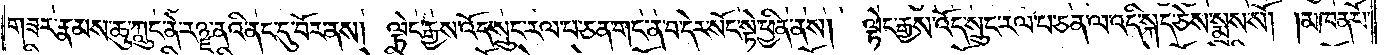གཟར་རྣམས་ཆུ་ཀླུང་ནེ་རཉྫ་ནའི་ནང་དུ་བོར་ནས། ལྟེང་རྒྱས་འོད་སྲུང་རལ་པ་ཅན་གང་ན་བ་དེར་སོང་སྟེ་ཕྱིན་ནས། ལྟེང་རྒྱས་འོད་སྲུང་རལ་པ་ཅན་ལ་འདི་སྐད་ཅེས་སྨྲས་སོ། །མཁན་པོ་
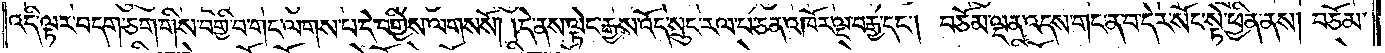འདི་ལྟར་བདག་ཅག་གིས་བགྱི་པ་གང་ལགས་པ་དེ་བགྱིས་ལགས་སོ། །དེ་ནས་ལྟེང་རྒྱས་འོད་སྲུང་རལ་པ་ཅན་འཁོར་ལྔ་བརྒྱ་དང༌། བཅོམ་ལྡན་འདས་གང་ན་བ་དེར་སོང་སྟེ་ཕྱིན་ནས། བཅོམ་
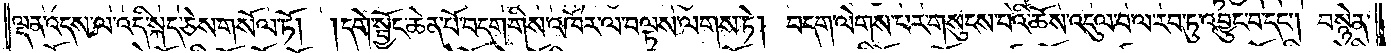ལྡན་འདས་ལ་འདི་སྐད་ཅེས་གསོལ་ཏོ། །དགེ་སྦྱོང་ཆེན་པོ་བདག་གིས་འཁོར་ལ་བལྟས་ལགས་ཏེ། བདག་ལེགས་པར་གསུངས་པའི་ཆོས་འདུལ་བ་ལ་རབ་ཏུ་འབྱུང་བ་དང༌། བསྙེན་
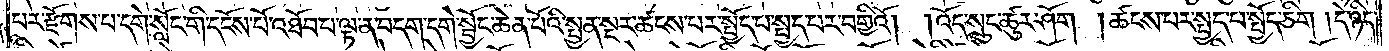པར་རྫོགས་པ་དགེ་སློང་གི་དངོས་པོ་འཐོབ་པ་ལྟ་ན་བདག་དགེ་སྦྱོང་ཆེན་པོའི་སྤྱན་སྔར་ཚངས་པར་སྤྱོད་པ་སྤྱད་པར་བགྱིའོ། །འོད་སྲུང་ཚུར་ཤོག །ཚངས་པར་སྤྱད་པ་སྤྱོད་ཅིག །དེ་ཉིད་
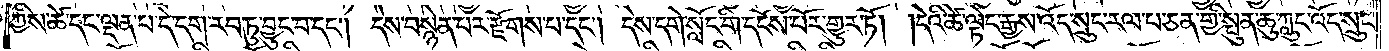ཀྱིས་ཚེ་དང་ལྡན་པ་དེ་དག་རབ་ཏུ་བྱུང་བ་དང༌། དེས་བསྙེན་པར་རྫོགས་པ་དང༌། དེས་དགེ་སློང་གི་དངོས་པོར་གྱུར་ཏོ། །དེའི་ཚེ་ལྟེང་རྒྱས་འོད་སྲུང་རལ་པ་ཅན་གྱི་སྤུན་ཆུ་ཀླུང་འོད་སྲུང་
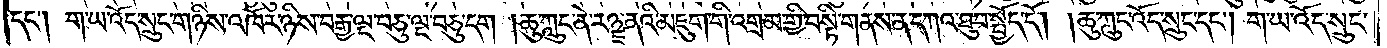དང༌། ག་ཡ་འོད་སྲུང་གཉིས་འཁོར་ཉིས་བརྒྱ་ལྔ་བཅུ་ལྔ་བཅུ་དག །ཆུ་ཀླུང་ནེ་རཉྫ་ནའི་མཇུག་གི་འགྲམ་གྱི་བསྟི་གནས་ན་དཀའ་ཐུབ་སྤྱོད་དོ། །ཆུ་ཀླུང་འོད་སྲུང་དང༌། ག་ཡ་འོད་སྲུང་
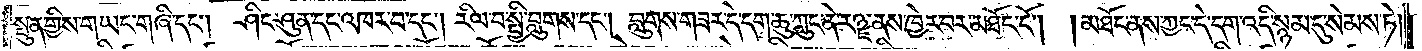སྤུན་གྱིས་གཡང་གཞི་དང༌། ཤིང་ཤུན་དང་འཁར་བ་དང༌། རིལ་བ་སྤྱི་བླུགས་དང༌། བླུགས་གཟར་དེ་དག་ཆུ་ཀླུང་ནེ་རཉྫ་ནས་ཁྱེར་བར་མཐོང་ངོ༌། །མཐོང་ནས་ཀྱང་དེ་དག་འདི་སྙམ་དུ་སེམས་ཏེ།
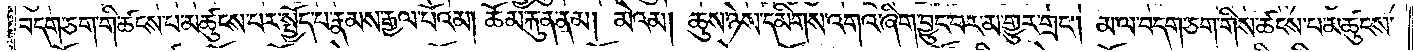བདག་ཅག་གི་ཚངས་པ་མཚུངས་པར་སྤྱོད་པ་རྣམས་རྒྱལ་པོའམ། ཆོམ་རྐུན་ནམ། མེའམ། ཆུས་ཉེས་དམིགས་འགའ་ཞིག་བྱུང་བར་མ་གྱུར་གྲང༌། མ་ལ་བདག་ཅག་གིས་ཚངས་པ་མཚུངས་
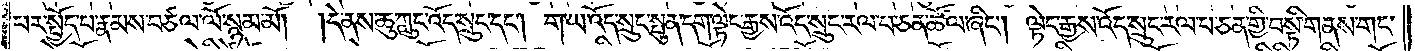པར་སྤྱོད་པ་རྣམས་བཙལ་ལོ་སྙམ་མོ། །དེ་ནས་ཆུ་ཀླུང་འོད་སྲུང་དང༌། ག་ཡ་འོད་སྲུང་སྤུན་དག་ལྟེང་རྒྱས་འོད་སྲུང་རལ་པ་ཅན་ཚོལ་ཞིང༌། ལྟེང་རྒྱས་འོད་སྲུང་རལ་པ་ཅན་གྱི་བསྟི་གནས་གང་
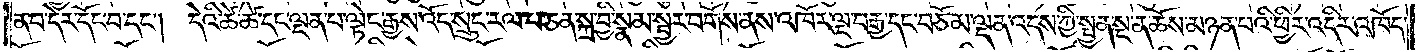ན་བ་དེར་དོང་བ་དང༌། དེའི་ཚེ་ཚེ་དང་ལྡན་པ་ལྟེང་རྒྱས་འོད་སྲུང་རལ་པ་ཅན་སྐྲ་བྱི་སྣམ་སྦྱར་བགོས་ནས་འཁོར་ལྔ་བརྒྱ་དང་བཅོམ་ལྡན་འདས་ཀྱི་སྤྱན་སྔ་ན་ཆོས་མཉན་པའི་ཕྱིར་འདིར་འཁོད་
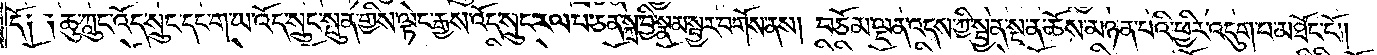དོ༑ ༑ཆུ་ཀླུང་འོད་སྲུང་དང་ག་ཡ་འོད་སྲུང་སྤུན་གྱིས་ལྟེང་རྒྱས་འོད་སྲུང་རལ་པ་ཅན་སྐྲ་བྱི་སྣམ་སྦྱར་བགོས་ནས། བཅོམ་ལྡན་འདས་ཀྱི་སྤྱན་སྔ་ན་ཆོས་མཉན་པའི་ཕྱིར་འདུག་པ་མཐོང་ངོ༌། །
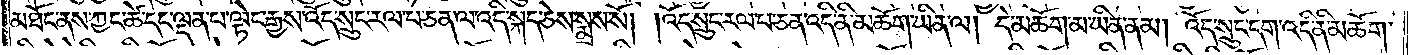མཐོང་ནས་ཀྱང་ཚེ་དང་ལྡན་པ་ལྟེང་རྒྱས་འོད་སྲུང་རལ་པ་ཅན་ལ་འདི་སྐད་ཅེས་སྨྲས་སོ། །འོད་སྲུང་རལ་པ་ཅན་འདི་ནི་མཆོག་ཡིན་ལ། དེ་མཆོག་མ་ཡིན་ནམ། འོད་སྲུང་དག་འདི་ནི་མཆོག་
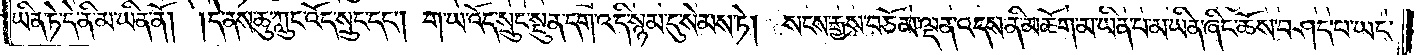ཡིན་ཏེ་དེ་ནི་མ་ཡིན་ནོ། །དེ་ནས་ཆུ་ཀླུང་འོད་སྲུང་དང༌། ག་ཡ་འོད་སྲུང་སྤུན་དག་འདི་སྙམ་དུ་སེམས་ཏེ། སངས་རྒྱས་བཅོམ་ལྡན་འདས་ནི་མཆོག་མ་ཡིན་པ་མ་ཡིན་ཞིང་ཆོས་བཤད་པ་ཡང་
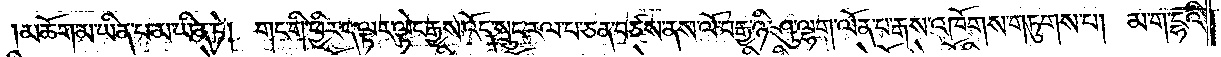མཆོག་མ་ཡིན་པ་མ་ཡིན་ཏེ། གང་གི་ཕྱིར་ད་ལྟར་ལྟེང་རྒྱས་འོད་སྲུང་རལ་པ་ཅན་བཙས་ནས་ལོ་བརྒྱ་ཉི་ཤུ་ལྷག་ལོན་པ་རྒས་འཁོགས་གཏུགས་པ། མ་ག་དྷའི་
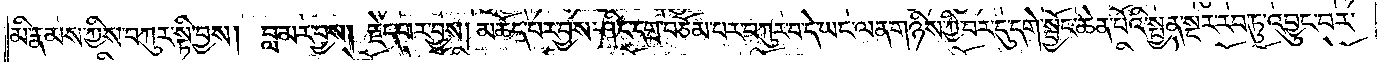མི་རྣམས་ཀྱིས་བཀུར་སྟི་བྱས། བླ་མར་བྱས། རྗེད་པར་བྱས། མཆོད་པར་བྱས་ཤིང་དགྲ་བཅོམ་པར་བཀུར་བ་དེ་ཡང་ལན་གཉིས་ཀྱི་བར་དུ་དགེ་སྦྱོང་ཆེན་པོའི་སྤྱན་སྔར་རབ་ཏུ་འབྱུང་བར་
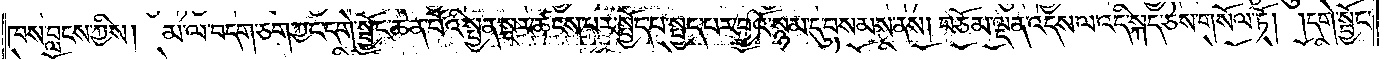ཁས་བླངས་ཀྱིས། མ་ལ་བདག་ཅག་ཀྱང་དགེ་སྦྱོང་ཆེན་པོའི་སྤྱན་སྔར་ཚངས་པར་སྤྱོད་པ་སྤྱད་པར་བྱའོ་སྙམ་དུ་བསམས་ནས། བཅོམ་ལྡན་འདས་ལ་འདི་སྐད་ཅེས་གསོལ་ཏོ། །དགེ་སྦྱོང་
